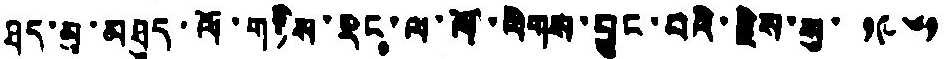ཐད་མུ་མཐུད་ལོ་གཉིས་རིང་ལ་ལོ་ལེགས་བྱུང་བའི་རྗེས་སུ ༡༩༦༡
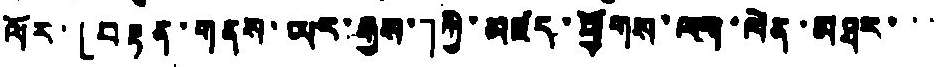ལོར་「བརྟན་གནས་ཡར་རྒྱས་」ཀྱི་མཛད་ཕྱོགས་ལག་ལེན་མཐར་་་
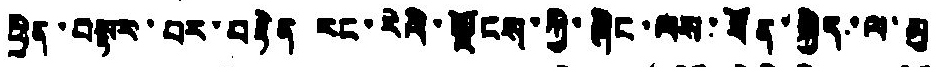ཕྱིན་བསྟར་བར་བརྟེན རང་རེའི་ལྗོངས་ཀྱི་ཞིང་ལས་ཐོན་སྐྱེད་ལ་མུ
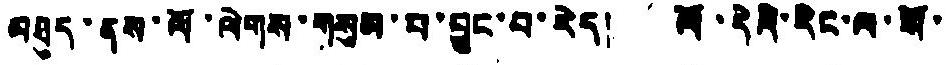མཐུད་ནས་ལོ་ལེགས་གསུམ་པ་བྱུང་བ་རེད། ལོ་དེའི་རིང་ལ་སོ་
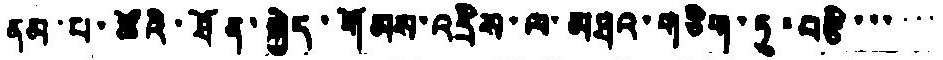ནམ་པ་ཚོའི་ཐོན་སྐྱེད་གོམས་འདྲིས་ལ་མཐའ་གཅིག་ཏུ་བརྩི་་་་་་
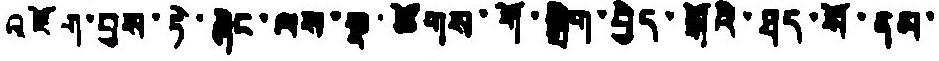འཇོག་བྱས་ཏེ་ཞིང་ལས་སྣ་ཚོགས་སྒོ་སྒྲིག་བྱེད་སྒོའི་ཐད་སོ་ནམ་
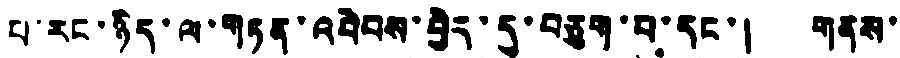པ་རང་ཉིད་ལ་གཏན་འབེབས་བྱེད་དུ་བཅུག་པ་དང་། གནས་
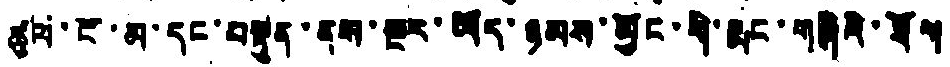ཚུལ་ངོ་མ་དང་བསྟུན་ནས་སྔར་ཡོད་ཉམས་མྱོང་གི་རྨང་གཞིའི་ཐོག
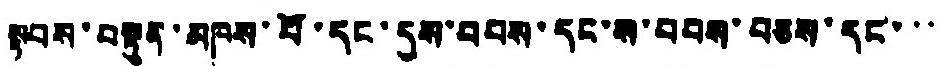སྟབས་བསྟུན་མཁས་པོ་དང་དུས་བབས་དང་ས་བབས་བཅས་དང་་་
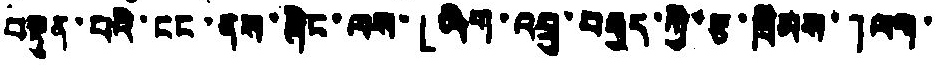བསྟུན་པའི་ངང་ནས་ཞིང་ལས་「ཡིག་འབྲུ་བརྒྱད་ཀྱི་རྩ་ཁྲིམས་」ལག་
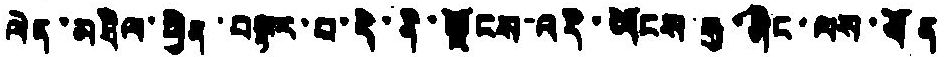ལེན་མཐིལ་ཕྱིན་བསྟར་བ་དེ་ནི་ལྗོངས་འདི་ཡོངས་སུ་ཞིང་ལས་ཐོན
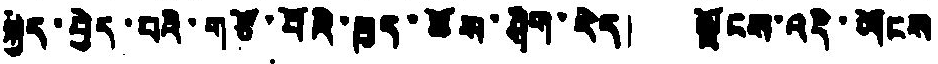སྐྱེད་བྱེད་པའི་གཙོ་བོའི་ཁྱད་ཚོས་ཤིག་རེད། ལྗོངས་འདི་ཡོངས
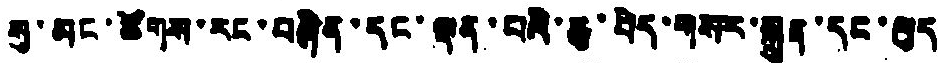སུ་མང་ཚོགས་རང་བཞིན་དང་ལྡན་པའི་ཆུ་བེད་གསར་སྐྲུན་དང་ལུད
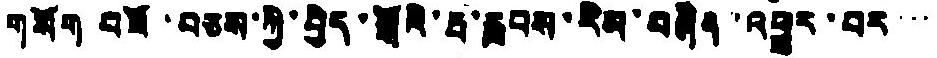གསོག བཟོ་བཅས་ཀྱི་བྱེད་སྒོའི་རྦ་རླབས་རིམ་བཞིན་འཕྱུར་བར་་་
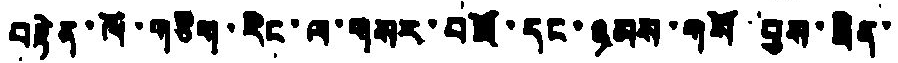བརྟེན་ལོ་གཅིག་རིང་ལ་གསར་བཟོ་དང་ཉམས་གསོ་བྱས་ཟིན་
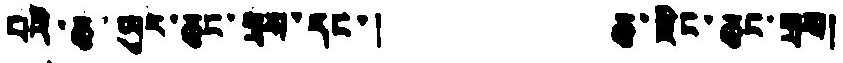པའི་ཆུ་ཡུར་ཆུང་སྲས་དང་། ཆུ་རྫིང་ཅུང་གྲས།
